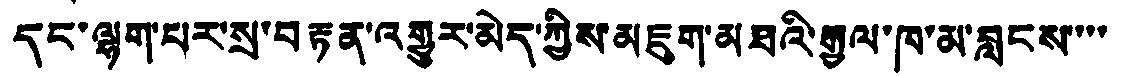དང་ལྷག་པར་སྲ་བརྟན་འགྱུར་མེད་ཀྱིས་མཇུག་མཐའི་རྒྱལ་ཁ་མ་བླངས་་་་
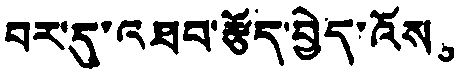བར་དུ་འཐབ་རྩོད་བྱེད་འོས。
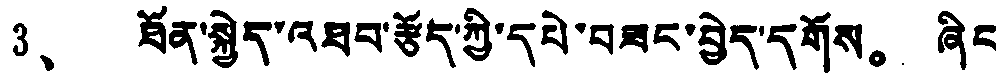3、 ཐོན་སྐྱེད་འཐབ་རྩོད་ཀྱི་དཔེ་བཟང་བྱེད་དགོས。 ཞིང
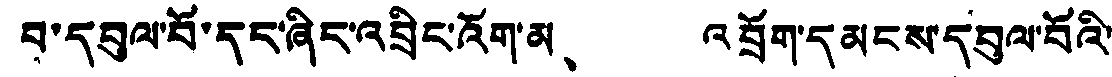བ་དབུལ་བོ་དང་ཞིང་འབྲིང་འོག་མ、 འབྲོག་དམངས་དབུལ་བོའི་
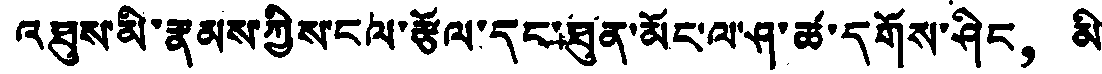འཐུས་མི་རྣམས་ཀྱིས་ངལ་རྩོལ་དང་ཐུན་མོང་ལ་ཤ་ཚ་དགོས་ཤིང， མི་
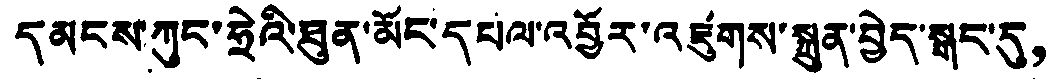དམངས་ཀུང་ཧྲེའི་ཐུན་མོང་དཔལ་འབྱོར་འཛུགས་སྐྲུན་བྱེད་སྒང་དུ，
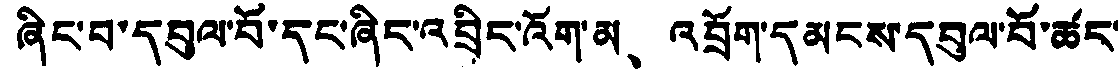ཞིང་བ་དབུལ་བོ་དང་ཞིང་འབྲིང་འོག་མ、 འབྲོག་དམངས་དབུལ་བོ་ཚང་
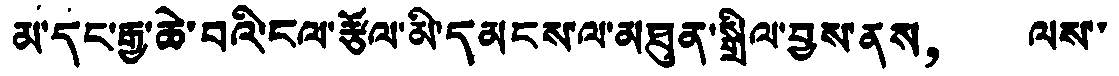མ་དང་རྒྱ་ཆེ་བའི་ངལ་རྩོལ་མི་དམངས་ལ་མཐུན་སྒྲིལ་བྱས་ནས， ལས་
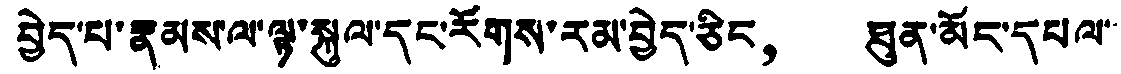བྱེད་པ་རྣམས་ལ་ལྟ་སྐུལ་དང་རོགས་རམ་བྱེད་ཅིང， ཐུན་མོང་དཔལ་་
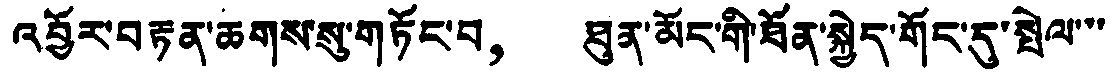འབྱོར་བརྟན་ཆགས་སུ་གཏོང་བ， ཐུན་མོང་གི་ཐོན་སྐྱེད་གོང་དུ་སྤེལ་་་
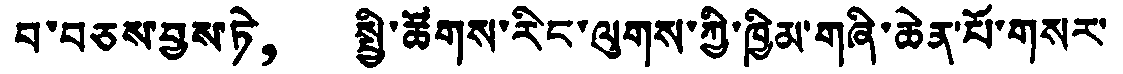བ་བཅས་བྱས་ཏེ， སྤྱི་ཚོགས་རིང་ལུགས་ཀྱི་ཁྱིམ་གཞི་ཆེན་པོ་གསར་
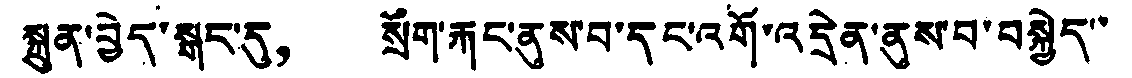སྐྲུན་བྱེད་སྒང་དུ， སྲོག་རྐང་ནུས་བ་དང་འགོ་འདྲེན་ནུས་བ་བསྐྱེད་་
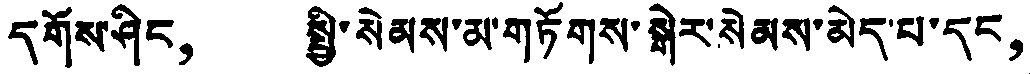དགོས་ཤིང， སྤྱི་སེམས་མ་གཏོགས་སྒེར་སེམས་མེད་པ་དང，
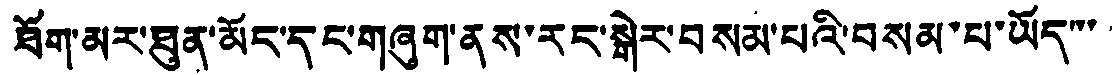ཐོག་མར་ཐུན་མོང་དང་གཞུག་ནས་རང་སྒེར་བསམ་པའི་བསམ་པ་ཡོད་་་
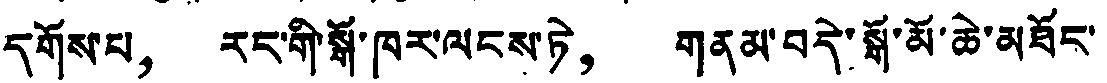དགོས་པ， རང་གི་སྒོ་ཁར་ལངས་ཏེ， གནམ་བདེ་སྒོ་མོ་ཆེ་མཐོང་
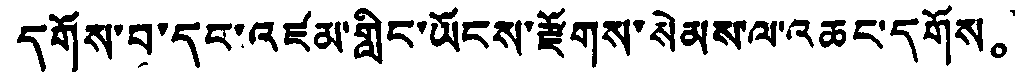དགོས་པ་དང་འཛམ་གླིང་ཡོངས་རྫོགས་སེམས་ལ་འཆང་དགོས。
